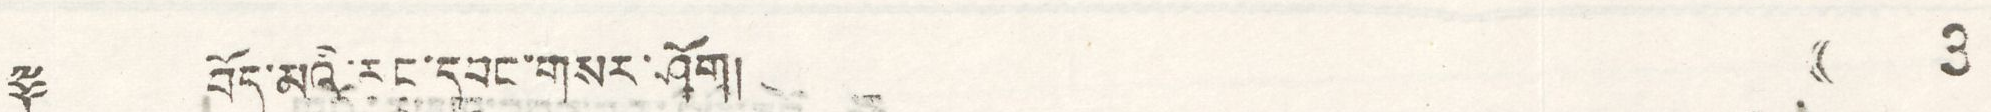༈ བོད་མའི་རང་དབང་གསར་ཤོག། (( 3
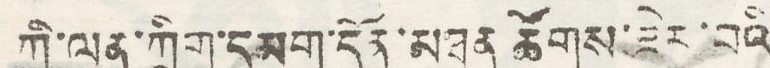ཀྲི་ལན་ཀྲིག་དམག་དོན་མཐུན ཚོགས་ཟེར་བའི
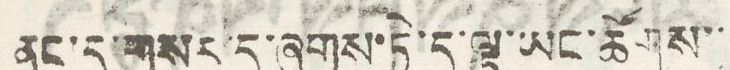ནང་དུ་གསར་དུ་ཞུགས་ཏེ་ད་ལྟ་ཡང་ཚོགས་་
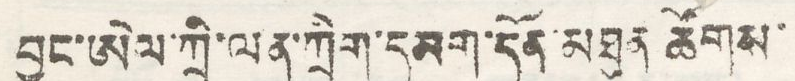བྱང་ཨེལ་ཀྲི་ལན་ཀྲིག་དམག་དོན་མཐུན ཚོགས་
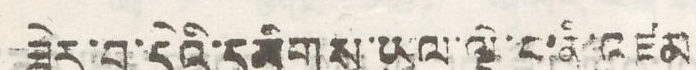ཟེར་བ་དེའི་དམིགས་ཡུལ་ལྟེ་བ་ནི་འཛམ་
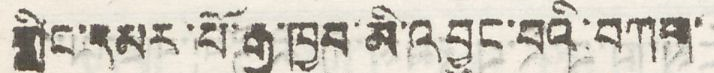གླིང་དམར་པོ་རྒྱ་ཁྱབ་མི་འབྱུང་བའི་བཀབ་
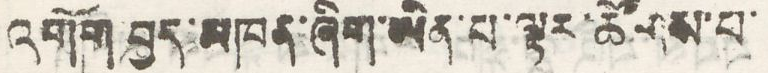འགོག་བྱད་མཁན་ཞིག་ཡིན་པ་ལྟར་ཚོགས་པ་
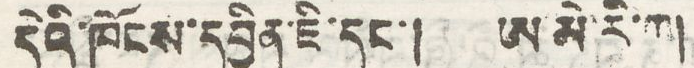དེའི་ཁོངས་དབྱིན་ཇི་དང་། ཨ་མེ་རི་ཀ།
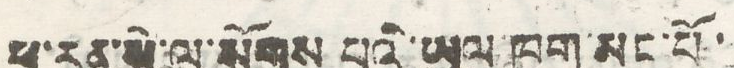ཕ་རན་སེ་ལ་སོགས པའི་ཡུལ་ཁག་མང་པོ་
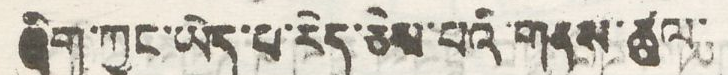ཞིག་ཀྱང་ཡོད་པ་རེད་ཅེས་པའི་གནས་ཚུལ་
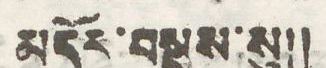མདོར་བསྡུས་སུ།།
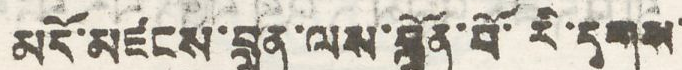མདོ་མཛངས་བླུན་ལས་བློན་པོ་རི་དྭགས་་
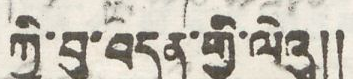ཀྱི་བུ་བདུན་གྱི་ལེའུ།།
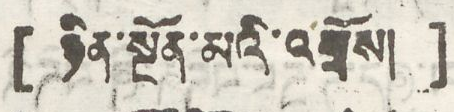[ ཉིན་སྔོན་མའི་འཕྲོས། ]
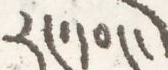རང་དབང་
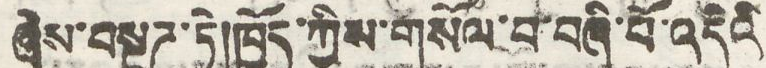ཞེས་བསྔཌ་ཏེ།ཁྱོད་ཀྱིས་གསོལ་པ་བཞི་པོ་འདིའི
